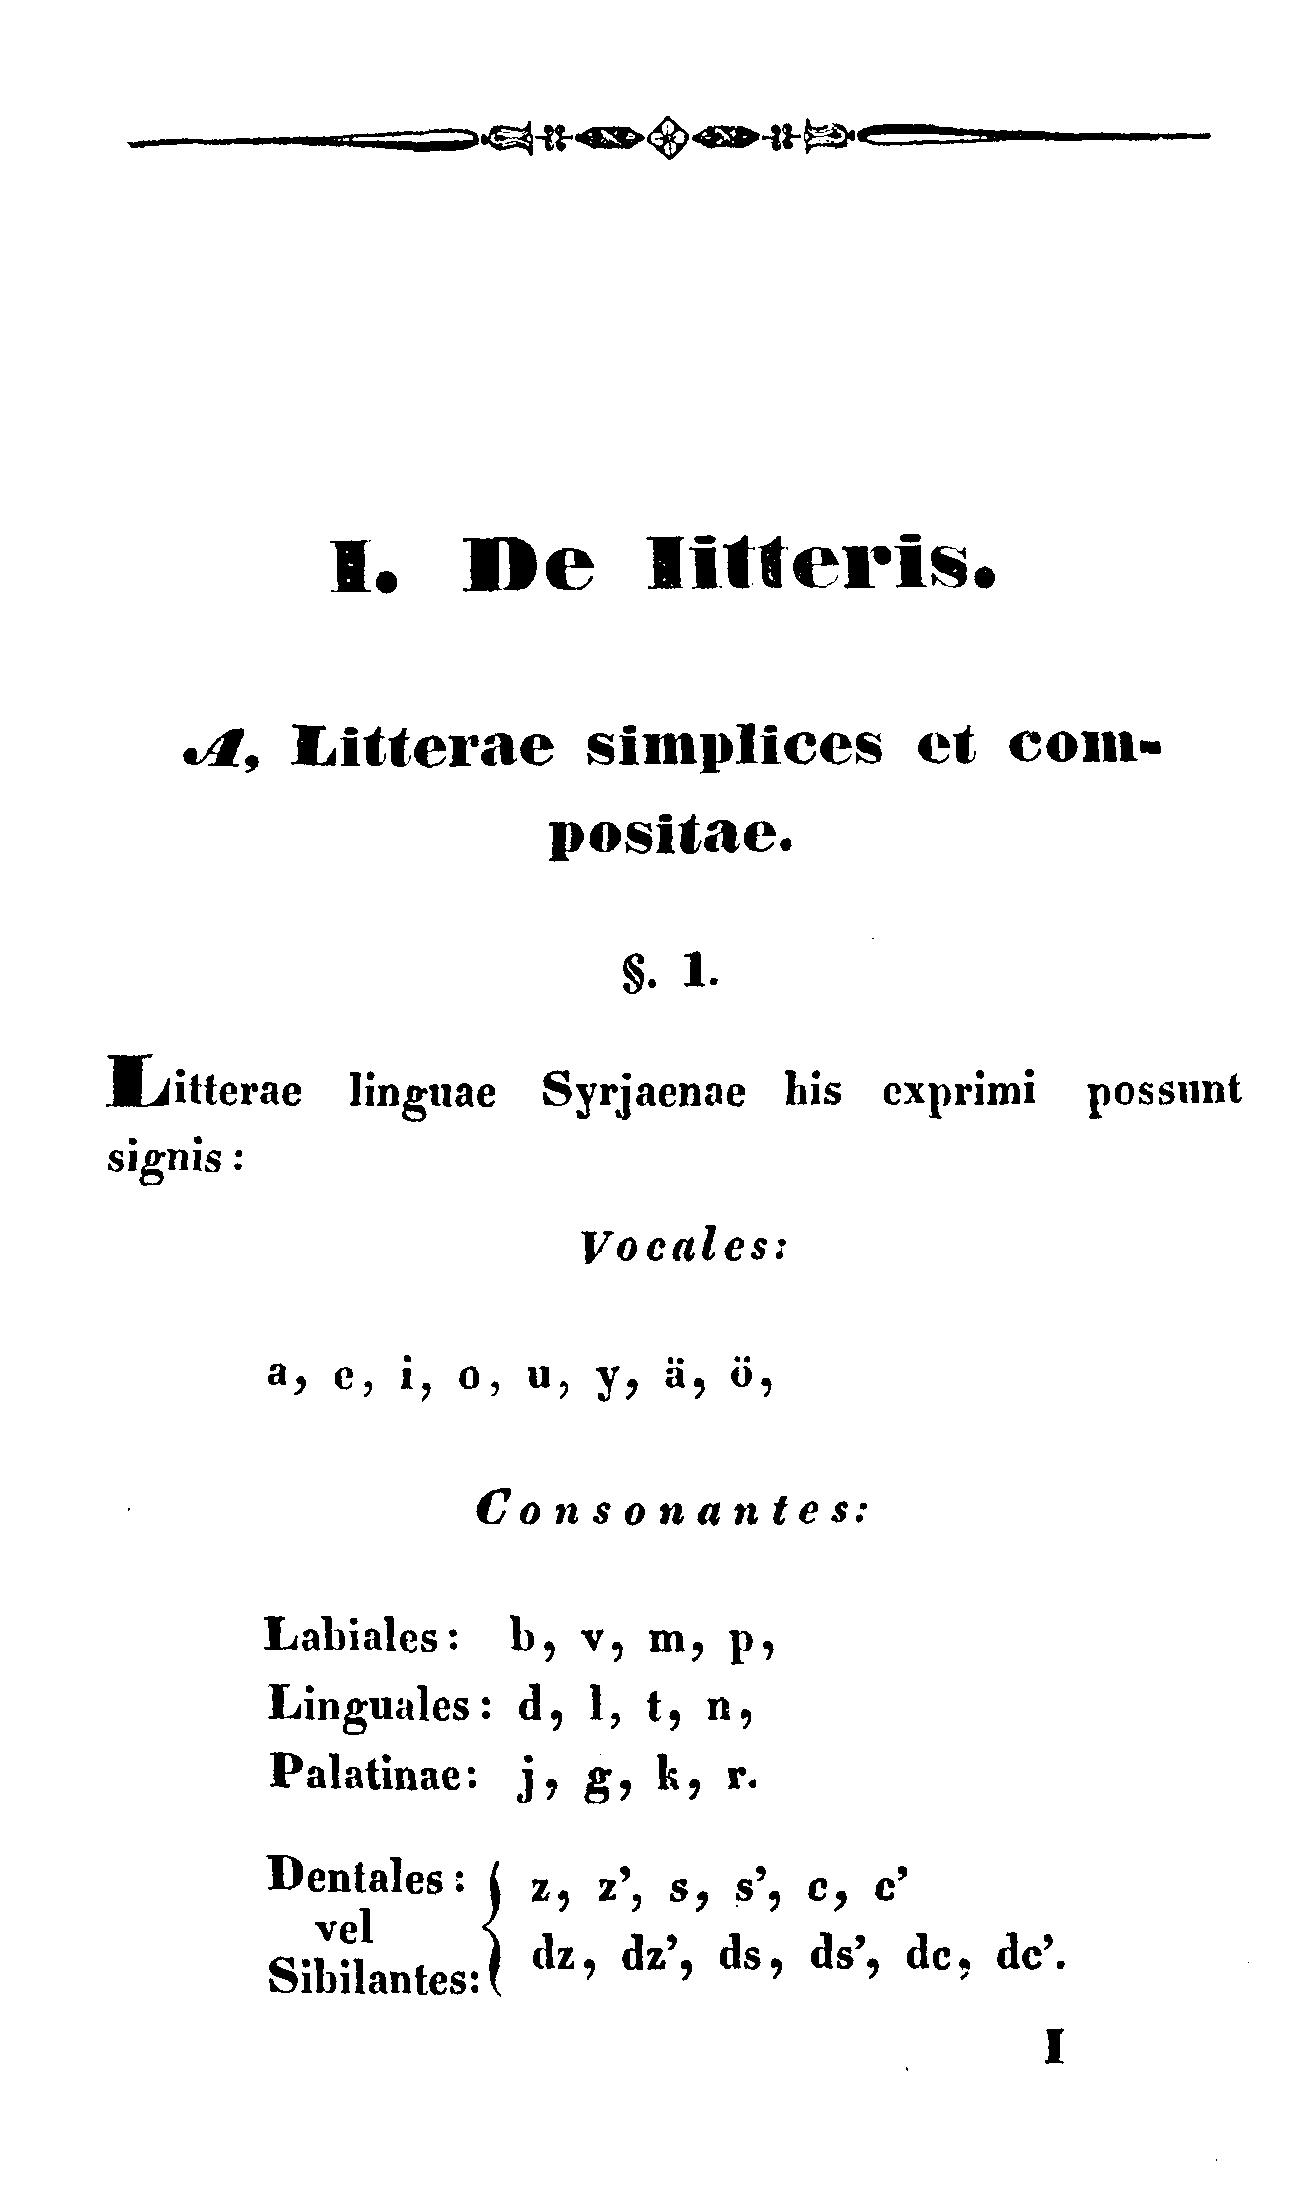I. De litteris.
A. Litterae simplices et com-
positae.
§. 1.
Litterae linguae Syrjaenae his exprimi possunt
signis:
Vocales:
a, e, i, o, u, y, ä, ö,
Consonantes:
Labiales: b, v, m, p,
Linguales: d, l, t, n,
Palatinae: j. g, k, r.
Dentales: z, z', s, s', c'
Sibilantes: dz, dz', ds, ds', dc, dc'.
I
